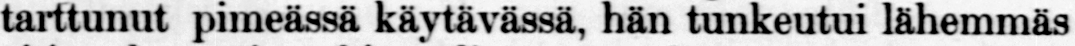tarttunut pimeässä käytävässä, hän tunkeutui lähemmäs
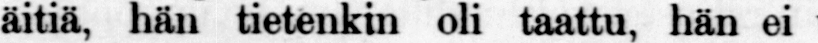äitiä, hän tietenkin oli taattu, hän ei varmaankaan
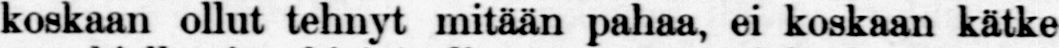koskaan ollut tehnyt mitään pahaa, ei koskaan kätke-
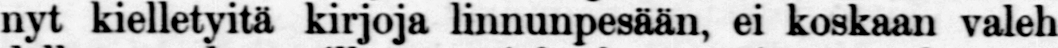nyt kielletyitä kirjoja linnunpesään, ei koskaan valeh-
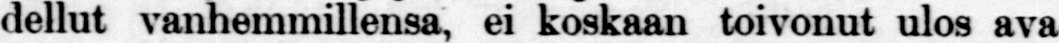dellut vanhemmillensa, ei koskaan toivonut ulos ava-
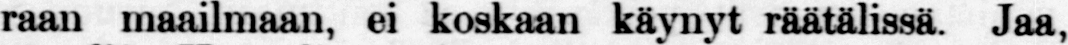raan maailmaan, ei koskaan käynyt räätälissä, jaa,
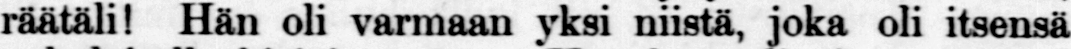räätäli! Hän oli varmaan yksi niistä, joka oli itsensä
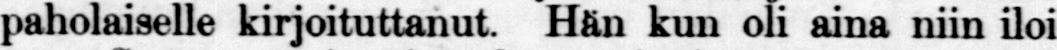paholaiselle kirjoituttanut. Hän kun oli aina niin iloi-
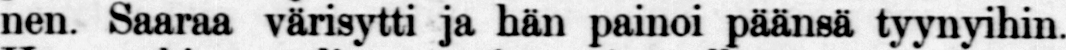nen. Saaraa ja hän painoi päänsä tyynyihin.
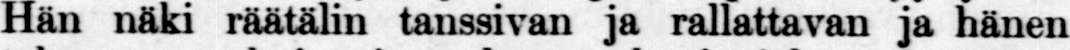Hän näki räätälin tanssivan ja rallattavan ja hänen
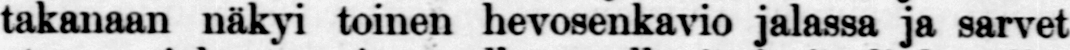takanaan näkyi toinen hevosenkavio jalassa ja sarvet
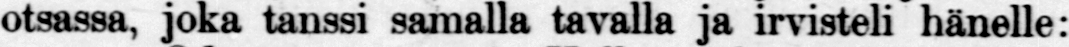otsassa, joka tanssi samalla tavalla ja irvisteli hänelle:
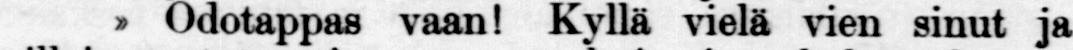» Odotappas vaan! kyllä vielä vien sinut ja
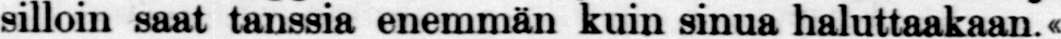silloin saat tanssia enemmän kuin sinua haluttaakaan,«
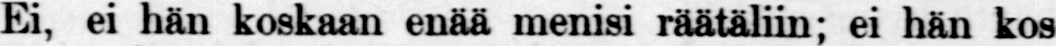Ei, ei hän koskaan enää menisi räätäliin, ei hän kos-
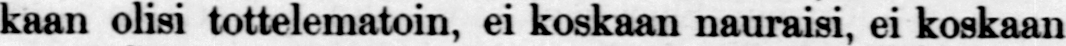kaan olisi tottelematoin, ei koskaan nauraisi, ei koskaan
